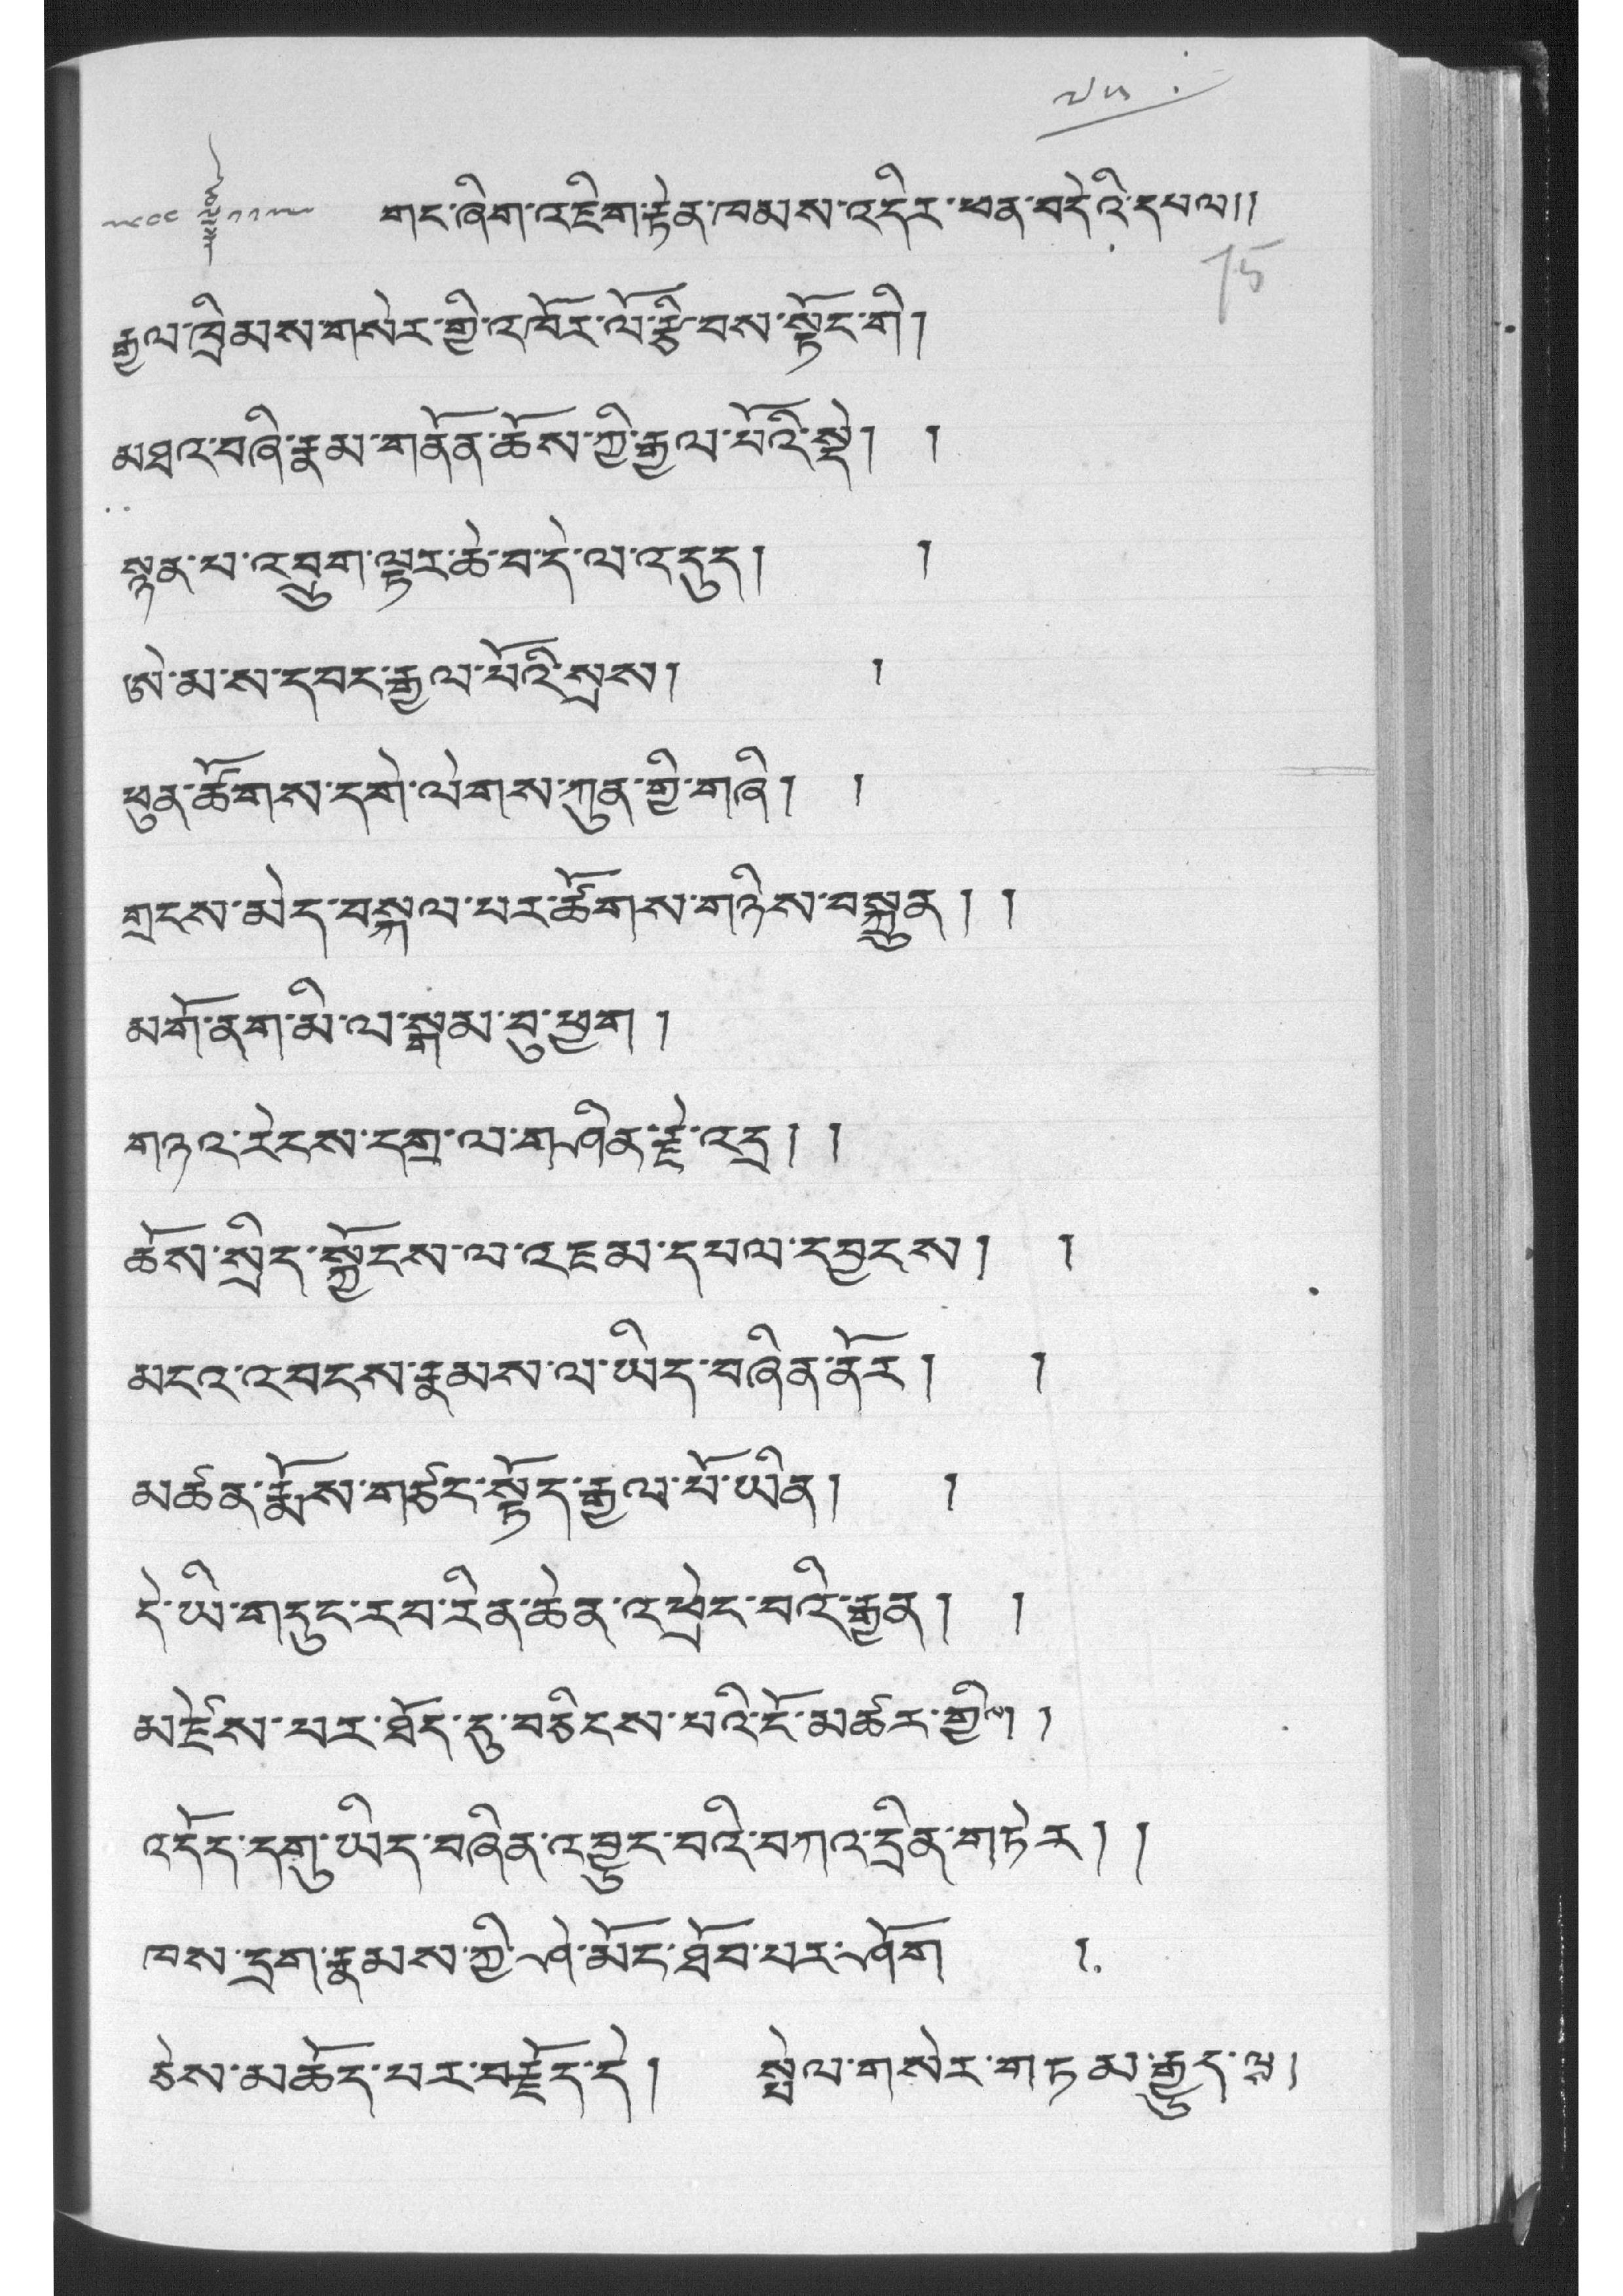༧༥
༒ གང་ཞིག་འཇིག་རྟེན་ཁམས་འདིར་ཕན་བདེའི་དཔལ།།
རྒྱལ་ཁྲིམས་གསེར་གྱི་འཁོར་ལོ་རྩིབས་སྟོང་གི།
མཐའ་བཞི་རྣམ་གནོན་ཆོས་ཀྱི་རྒྱལ་པོའི་སྡེ། །
སྙན་པ་འབྲུག་ལྟར་ཆེ་བ་དེ་ལ་འདུད། །
ཨེ་མ་ས་དབང་རྒྱལ་པོའི་སྲས། །
ཕུན་ཚོགས་དགེ་ལེགས་ཀུན་གྱི་གཞི། །
གྲངས་མེད་བསྐལ་པར་ཚོགས་གཉིས་བསྐྲུན། །
མགོ་ནག་མི་ལ་སྒམ་བུ་ཕྱག །
གཉའ་རེངས་དགྲ་ལ་གཤིན་རྫེ་འདྲ། །
ཆོས་སྲིད་སྐྱོངས་ལ་འཇམ་དཔལ་དབྱངས། །
མངའ་འབངས་རྣམསས་ལ་ཡིད་བཞིན་ནོར། །
མཚན་རྨོས་གཙང་སྟོད་རྒྱལ་པོ་ཡིན། །
དེ་ཡི་གདུང་རབ་རིན་ཆེན་འཕྲེང་བའི་རྒྱན། །
མཛེས་པར་ཐོད་དུ་བཅིངས་པའི་ངོ་མཚར་གྱིས། །
འདོད་དགུ་ཡིད་བཞིན་འབྱུང་བའི་བཀའ་དྲིན་གཏེར། །
ཁས་དྲག་རྣམས་ཀྱི་ཤེ་མོང་ཐོབ་པར་ཤོག །
ཅེས་མཆོད་པར་བརྗོད་དེ། སྤེལ་གསེར་གཏམ་རྒྱུད་ལས།
